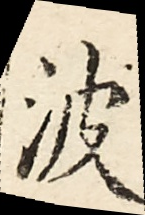波
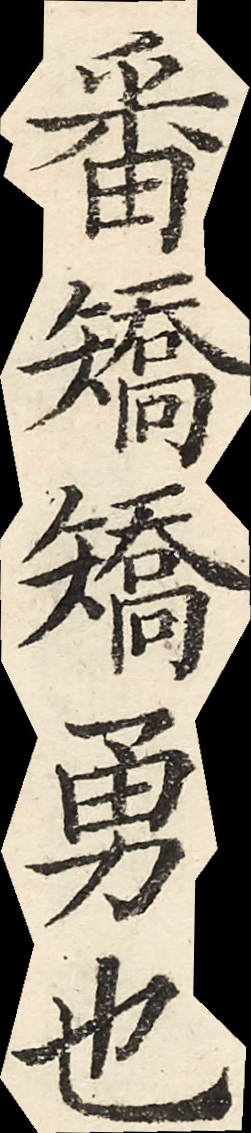番矯矯勇也
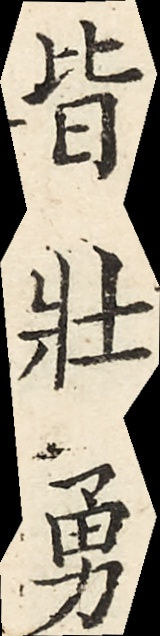皆壯勇
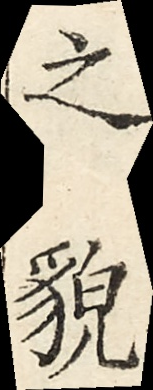之貌
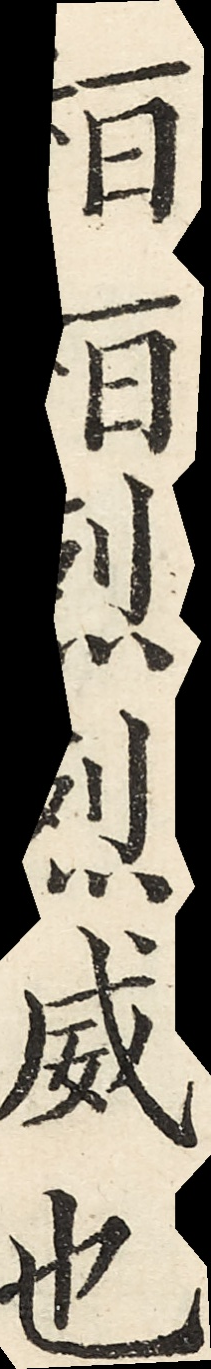桓桓烈烈威也
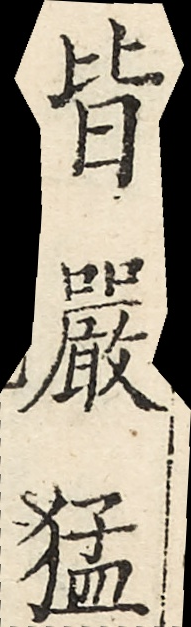皆嚴猛
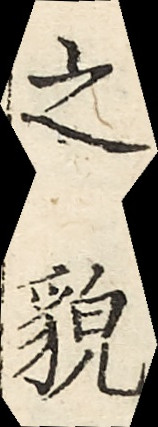之貌
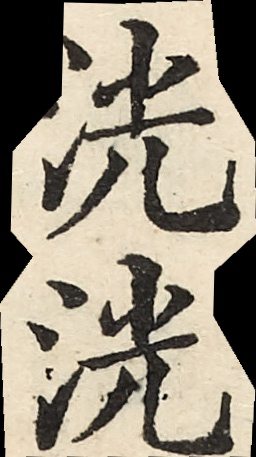洸洸
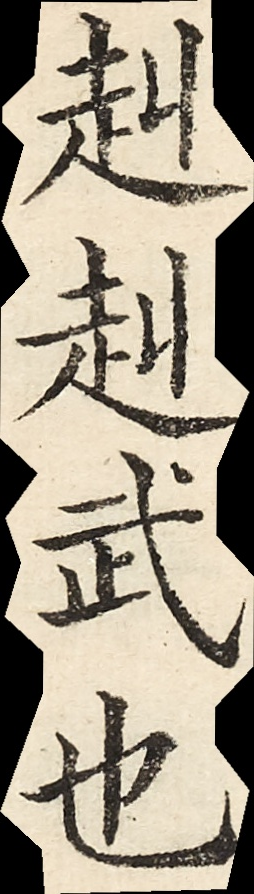赳赳武也
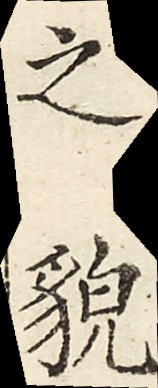之貌
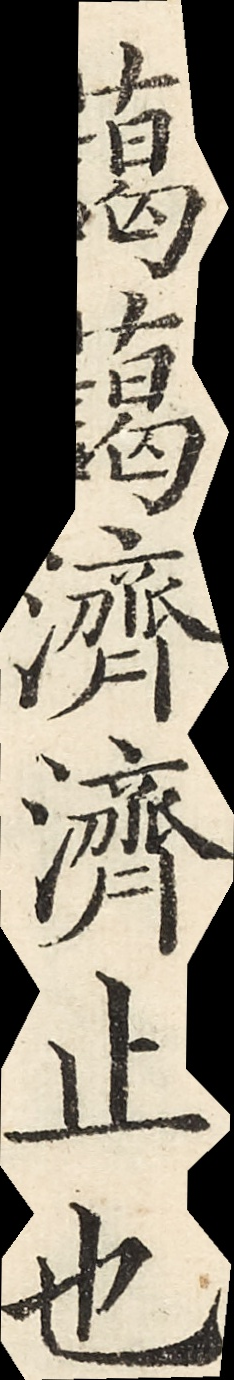藹藹濟濟止也
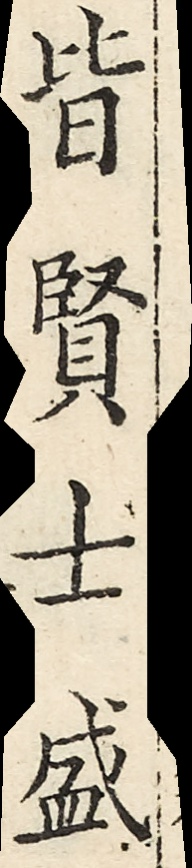皆賢士盛
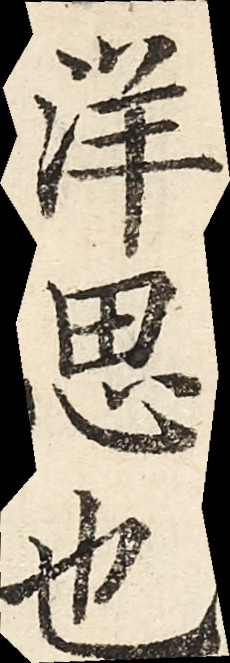洋思也
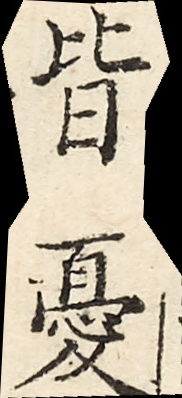皆憂
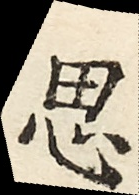思
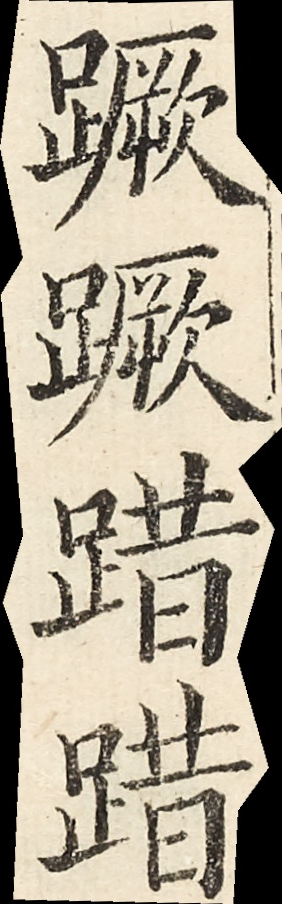蹶蹶踖踖
